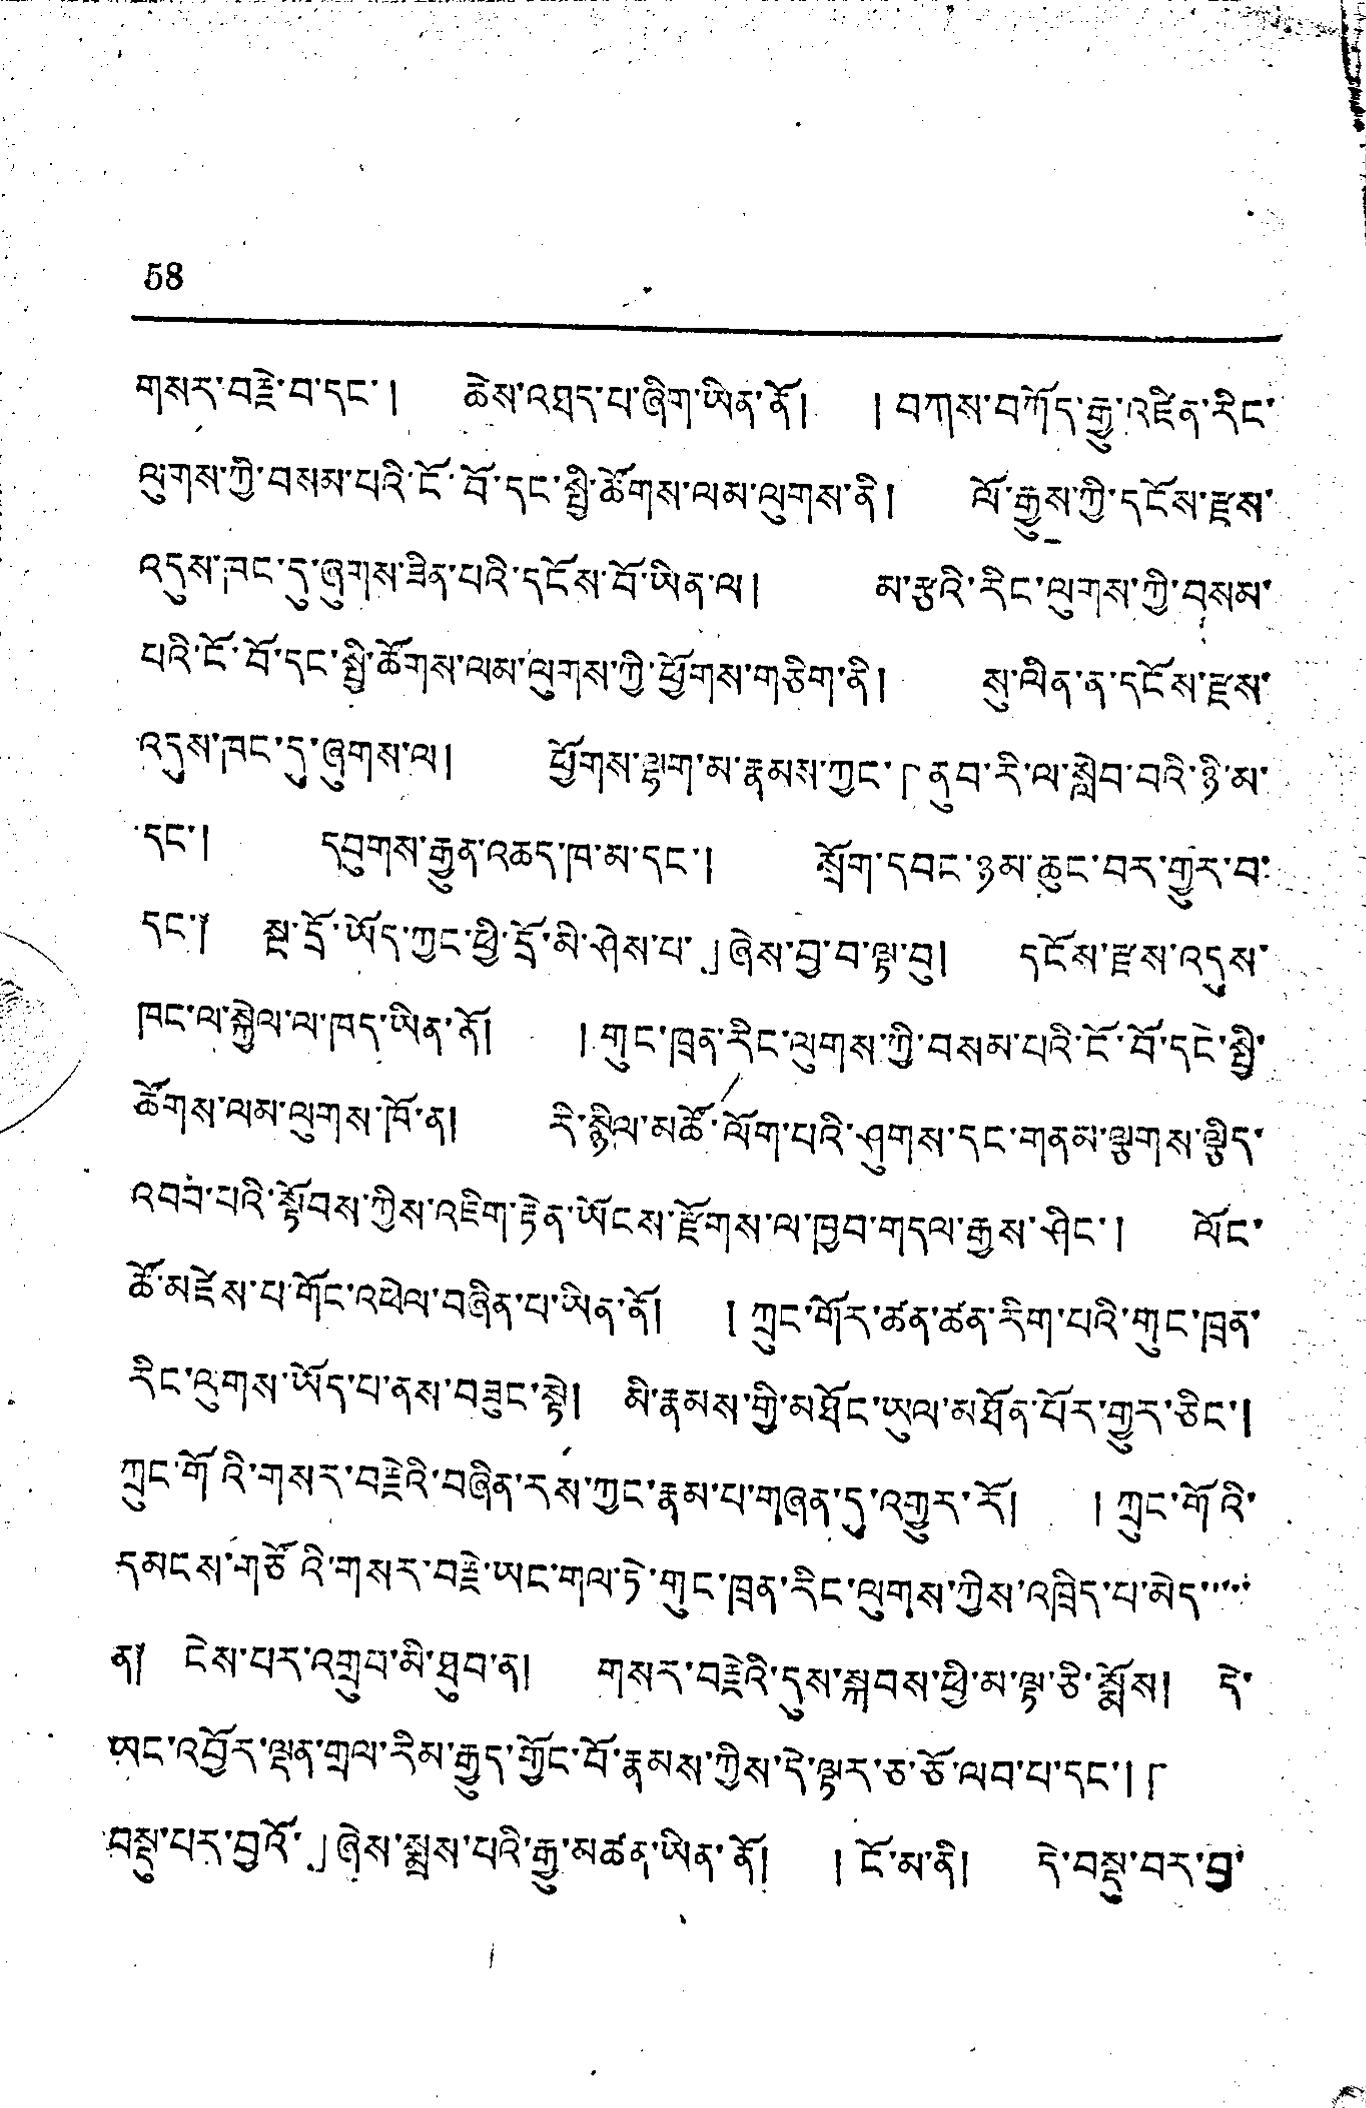58
གསར་བརྗེ་བ་དང་། ཆེས་འཐད་པ་ཞིག་ཡིན་ནོ། །བཀས་བཀོད་རྒྱུ་འཛིན་རིང་
ལུགས་ཀྱི་བསམ་པའི་ངོ་བོ་དང་སྤྱི་ཚོགས་ལམ་ལུགས་ནི། ལོ་རྒྱུས་ཀྱི་དངོས་རྫས་
འདུས་ཁང་དུ་ཞུགས་ཟིན་པའི་དངོས་བོ་ཡིན་ལ། མ་རྩའི་རིང་ལུགས་ཀྱི་བསམ་
པའི་ངོ་བོ་དང་སྤྱི་ཚོགས་ལམ་ལུགས་ཀྱི་ཕྱོགས་གཅིག་ནི། སུ་ལིན་ན་དངོས་རྫས་
འདུས་ཁང་དུ་ཞུགས་ལ། ཕྱོགས་ལྷག་མ་རྣམས་ཀྱང་「ནུབ་རི་ལ་སླེབ་བའི་ཉི་མ་
དང་། དབུགས་རྒྱུན་འཆད་ཁ་མ་དང་། སྲོག་དབང་ཉམ་ཆུང་བར་གྱུར་བ་
དང་༐ སྔ་དྲོ་ཡོད་ཀྱང་ཕྱི་དྲོ་མི་ཤེས་པ་」ཞེས་བྱ་བ་ལྟ་བུ། དངོས་རྫས་འདུས་
ཁང་ལ་སྐྱེལ་ལ་ཁད་ཡིན་ནོ། །གུང་ཁྲན་རིང་ལུགས་ཀྱི་བསམ་པའི་ངོ་བོ་དང་སྤྱི་
ཚོགས་ལམ་ལུགས་ཁོ་ན། རི་སྙིལ་མཚོ་ལོག་པའི་ཤུགས་དང་གནམ་ལྕགས་ལྕིད་
འབབ་པའི་སྟོབས་ཀྱིས་འཇིག་རྟེན་ཡོངས་རྫོགས་ལ་ཁྱབ་གདལ་རྒྱས་ཤིང་། ལོང་
ཚོ་མཛེས་པ་གོང་འཕེལ་བཞིན་པ་ཡིན་ནོ། །ཀྲུང་གོར་ཚན་ཚན་རིག་པའི་གུང་ཁྲན་
རིང་འུགས་ཡོད་པ་ནས་བཟུང་སྟེ། མི་རྣམས་གྱི་མཐོང་ཡུལ་མཐོན་པོར་གྱུར་ཅིང་།
ཀྲུང་གོའི་གསར་བརྗེའི་བཞིན་རས་ཀྱང་རྣམ་པ་གཞན་དུ་འགྱུར་རོ། །ཀྲུང་གོའི་
དམངས་གཙོའི་གསར་བརྗེ་ཡང་གལ་ཏེ་གུང་ཁྲན་རིང་ལུགས་ཀྱིས་འཁྲིད་པ་མེད་་་་་
ན། ངེས་པར་འགྲུབ་མི་ཐུབ་ན། གསར་བརྗེའི་དུས་སྐབས་ཕྱི་མ་ལྟ་ཅི་སྨོས། དེ་
ཡང་འབྱོར་ལྡན་གྲལ་རིམ་རྒྱུད་གྱོང་བོ་རྣམས་ཀྱིས་དེ་ལྟར་ཅ་ཅོ་ལབ་པ་དང་། 「
བསྡུ་པར་བྱའོ་」ཞེས་སྨྲས་པའི་རྒྱུ་མཚན་ཡིན་ནོ། །ངོ་མ་ནི། དེ་བསྡུ་བར་བྱ་
